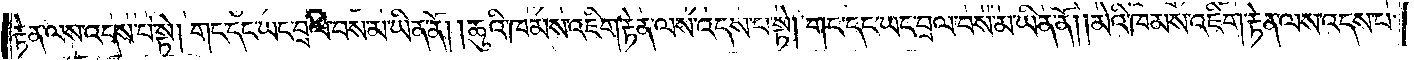རྟེན་ལས་འདས་པ་སྟེ། གང་དང་ཡང་བྲལ་བས་མ་ཡིན་ནོ། ཆུའི་ཁམས་འཇིག་རྟེན་ལས་འདས་པ་སྟེ། གང་དང་ཡང་བྲལ་བས་མ་ཡིན་ནོ། །མེའི་ཁམས་འཇིག་རྟེན་ལས་འདས་པ་
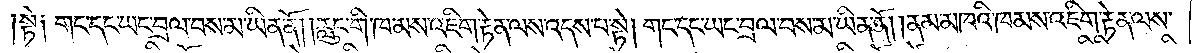སྟེ། གང་དང་ཡང་བྲལ་བས་མ་ཡིན་ནོ། །རླུང་གི་ཁམས་འཇིག་རྟེན་ལས་འདས་པ་སྟེ། གང་དང་ཡང་བྲལ་བས་མ་ཡིན་ནོ། །ནམ་མཁའི་ཁམས་འཇིག་རྟེན་ལས་
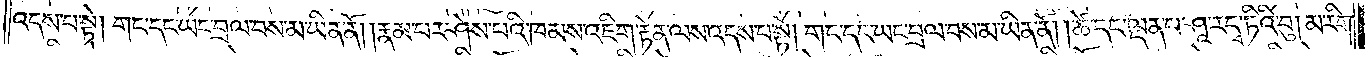འདས་པ་སྟེ། གང་དང་ཡང་བྲལ་བས་མ་ཡིན་ནོ། །རྣམ་པར་ཤེས་པའི་ཁམས་འཇིག་རྟེན་ལས་འདས་པ་སྟེ། གང་དང་ཡང་བྲལ་བས་མ་ཡིན་ནོ། །ཚེ་དང་ལྡན་པ་ཤཱ་ར་དྭ་ཏིའི་བུ། མ་རིག་
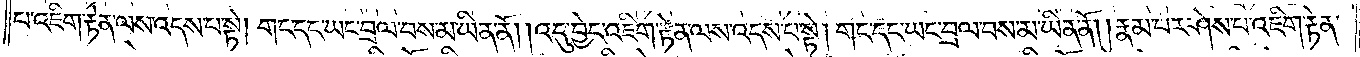པ་འཇིག་རྟེན་ལས་འདས་པ་སྟེ། གང་དང་ཡང་བྲལ་བས་མ་ཡིན་ནོ། །འདུ་བྱེད་འཇིག་རྟེན་ལས་འདས་པ་སྟེ། གང་དང་ཡང་བྲལ་བས་མ་ཡིན་ནོ། །རྣམ་པར་ཤེས་པ་འཇིག་རྟེན་
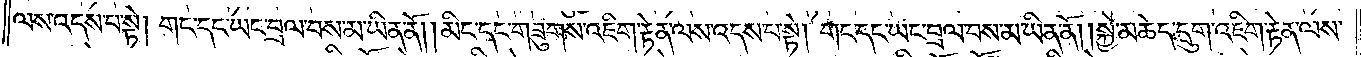ལས་འདས་པ་སྟེ། གང་དང་ཡང་བྲལ་བས་མ་ཡིན་ནོ། །མིང་དང་གཟུགས་འཇིག་རྟེན་ལས་འདས་པ་སྟེ། གང་དང་ཡང་བྲལ་བས་མ་ཡིན་ནོ། །སྐྱེ་མཆེད་དྲུག་འཇིག་རྟེན་ལས་
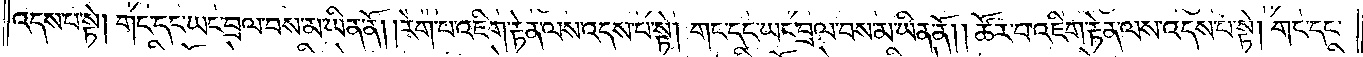འདས་པ་སྟེ། གང་དང་ཡང་བྲལ་བས་མ་ཡིན་ནོ། །རེག་པ་འཇིག་རྟེན་ལས་འདས་པ་སྟེ། གང་དང་ཡང་བྲལ་བས་མ་ཡིན་ནོ། །ཚོར་བ་འཇིག་རྟེན་ལས་འདས་པ་སྟེ། གང་དང་
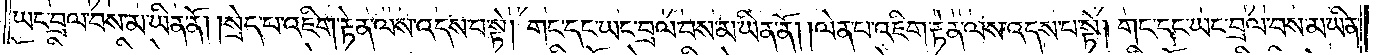ཡང་བྲལ་བས་མ་ཡིན་ནོ། །སྲེད་པ་འཇིག་རྟེན་ལས་འདས་པ་སྟེ། གང་དང་ཡང་བྲལ་བས་མ་ཡིན་ནོ། །ལེན་པ་འཇིག་རྟེན་ལས་འདས་པ་སྟེ། གང་དང་ཡང་བྲལ་བས་མ་ཡིན་
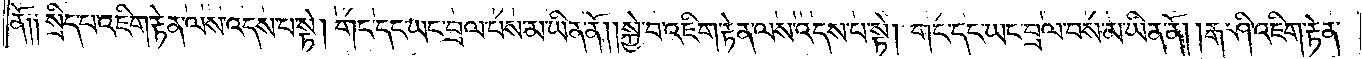ནོ། །སྲིད་པ་འཇིག་རྟེན་ལས་འདས་པ་སྟེ། གང་དང་ཡང་བྲལ་བས་མ་ཡིན་ནོ། །སྐྱེ་བ་འཇིག་རྟེན་ལས་འདས་པ་སྟེ། གང་དང་ཡང་བྲལ་བས་མ་ཡིན་ནོ། །རྒ་ཤི་འཇིག་རྟེན་
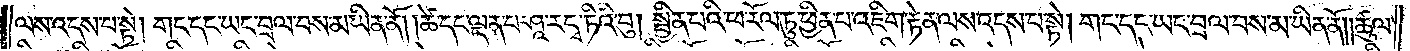ལས་འདས་པ་སྟེ། གང་དང་ཡང་བྲལ་བས་མ་ཡིན་ནོ། །ཚེ་དང་ལྡན་པ་ཤཱ་ར་དྭ་ཏིའི་བུ། སྦྱིན་པའི་ཕ་རོལ་ཏུ་ཕྱིན་པ་འཇིག་རྟེན་ལས་འདས་པ་སྟེ། གང་དང་ཡང་བྲལ་བས་མ་ཡིན་ནོ། །ཚུལ་
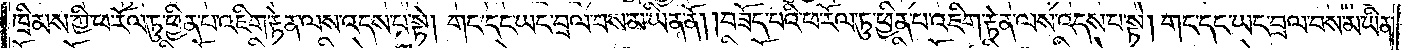ཁྲིམས་ཀྱི་ཕ་རོལ་ཏུ་ཕྱིན་པ་འཇིག་རྟེན་ལས་འདས་པ་སྟེ། གང་དང་ཡང་བྲལ་བས་མ་ཡིན་ནོ། །བཟོད་པའི་ཕ་རོལ་ཏུ་ཕྱིན་པ་འཇིག་རྟེན་ལས་འདས་པ་སྟེ། གང་དང་ཡང་བྲལ་བས་མ་ཡིན་
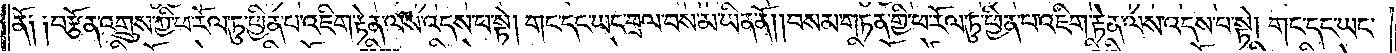ནོ། །བརྩོན་འགྲུས་ཀྱི་ཕ་རོལ་ཏུ་ཕྱིན་པ་འཇིག་རྟེན་ལས་འདས་པ་སྟེ། གང་དང་ཡང་བྲལ་བས་མ་ཡིན་ནོ། །བསམ་གཏན་གྱི་ཕ་རོལ་ཏུ་ཕྱིན་པ་འཇིག་རྟེན་ལས་འདས་པ་སྟེ། གང་དང་ཡང་
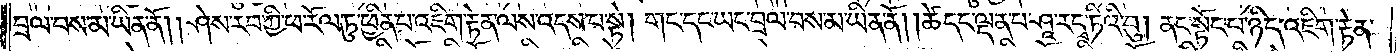བྲལ་བས་མ་ཡིན་ནོ། །ཤེས་རབ་ཀྱི་ཕ་རོལ་ཏུ་ཕྱིན་པ་འཇིག་རྟེན་ལས་འདས་པ་སྟེ། གང་དང་ཡང་བྲལ་བས་མ་ཡིན་ནོ། །ཚེ་དང་ལྡན་པ་ཤཱ་ར་དྭ་ཏིའི་བུ། ནང་སྟོང་པ་ཉིད་འཇིག་རྟེན་
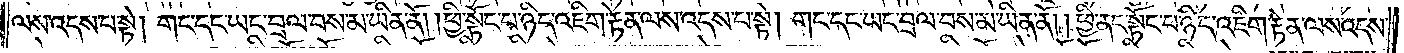ལས་འདས་པ་སྟེ། གང་དང་ཡང་བྲལ་བས་མ་ཡིན་ནོ། །ཕྱི་སྟོང་པ་ཉིད་འཇིག་རྟེན་ལས་འདས་པ་སྟེ། གང་དང་ཡང་བྲལ་བས་མ་ཡིན་ནོ། །ཕྱི་ནང་སྟོང་པ་ཉིད་འཇིག་རྟེན་ལས་འདས་
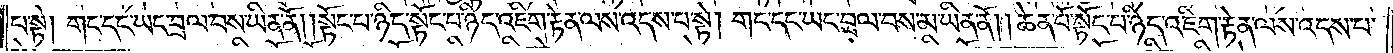པ་སྟེ། གང་དང་ཡང་བྲལ་བས་མ་ཡིན་ནོ། །སྟོང་པ་ཉིད་སྟོང་པ་ཉིད་འཇིག་རྟེན་ལས་འདས་པ་སྟེ། གང་དང་ཡང་བྲལ་བས་མ་ཡིན་ནོ། །ཆེན་པོ་སྟོང་པ་ཉིད་འཇིག་རྟེན་ལས་འདས་པ་
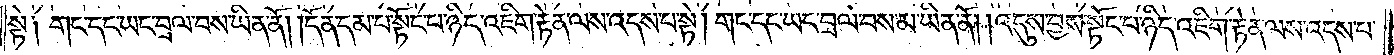སྟེ༑ གང་དང་ཡང་བྲལ་བས་མ་ཡིན་ནོ། །དོན་དམ་པ་སྟོང་པ་ཉིད་འཇིག་རྟེན་ལས་འདས་པ་སྟེ། གང་དང་ཡང་བྲལ་བས་མ་ཡིན་ནོ། །འདུས་བྱས་སྟོང་པ་ཉིད་འཇིག་རྟེན་ལས་འདས་པ་
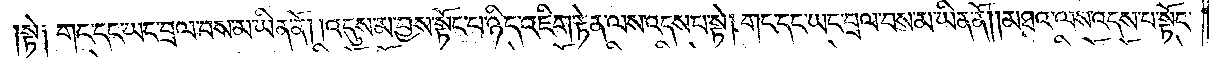སྟེ༑ གང་དང་ཡང་བྲལ་བས་མ་ཡིན་ནོ། །འདུས་མ་བྱས་སྟོང་པ་ཉིད་འཇིག་རྟེན་ལས་འདས་པ་སྟེ། གང་དང་ཡང་བྲལ་བས་མ་ཡིན་ནོ། །མཐའ་ལས་འདས་པ་སྟོང་
